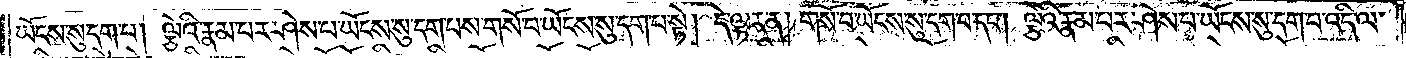ཡོངས་སུ་དག་པ། ལྕེའི་རྣམ་པར་ཤེས་པ་ཡོངས་སུ་དག་པས་གསོ་བ་ཡོངས་སུ་དག་པ་སྟེ། དེ་ལྟར་ན། གསོ་བ་ཡོངས་སུ་དག་པ་དང༌། ལྕེའི་རྣམ་པར་ཤེས་པ་ཡོངས་སུ་དག་པ་འདི་ལ་
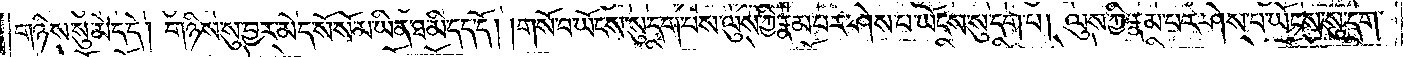གཉིས་སུ་མེད་དེ། གཉིས་སུ་བྱར་མེད་སོ་སོ་མ་ཡིན་ཐ་མི་དད་དོ། ། གསོ་བ་ཡོངས་སུ་དག་པས་ལུས་ཀྱི་རྣམ་པར་ཤེས་པ་ཡོངས་སུ་དག་པ། ལུས་ཀྱི་རྣམ་པར་ཤེས་པ་ཡོངས་སུ་དག་
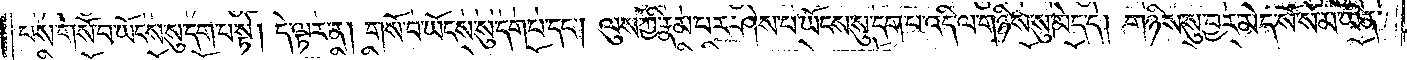པས་གསོ་བ་ཡོངས་སུ་དག་པ་སྟེ། དེ་ལྟར་ན། གསོ་བ་ཡོངས་སུ་དག་པ་དང༌། ལུས་ཀྱི་རྣམ་པར་ཤེས་པ་ཡོངས་སུ་དག་པ་འདི་ལ་གཉིས་སུ་མེད་དེ། གཉིས་སུ་བྱར་མེད་སོ་སོ་མ་ཡིན་
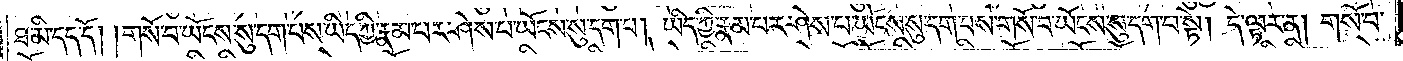ཐ་མི་དད་དོ། །གསོ་བ་ཡོངས་སུ་དག་པས་ཡིད་ཀྱི་རྣམ་པར་ཤེས་པ་ཡོངས་སུ་དག་པ། ཡིད་ཀྱི་རྣམ་པར་ཤེས་པ་ཡོངས་སུ་དག་པས་གསོ་བ་ཡོངས་སུ་དག་པ་སྟེ། དེ་ལྟར་ན། གསོ་བ་
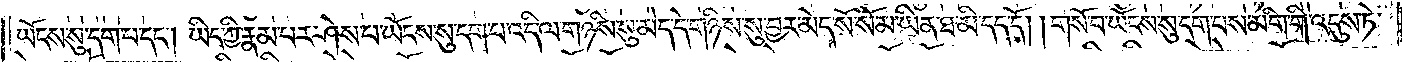ཡོངས་སུ་དག་པ་དང༌། ཡིད་ཀྱི་རྣམ་པར་ཤེས་པ་ཡོངས་སུ་དག་པ་འདི་ལ་གཉིས་སུ་མེད་དེ། གཉིས་སུ་བྱར་མེད་སོ་སོ་མ་ཡིན་ཐ་མི་དད་དོ། །གསོ་བ་ཡོངས་སུ་དག་པས་མིག་གི་འདུས་ཏེ་
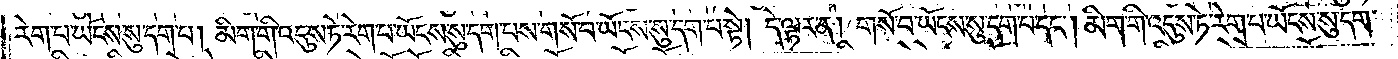རེག་པ་ཡོངས་སུ་དག་པ། མིག་གི་འདུས་ཏེ་རེག་པ་ཡོངས་སུ་དག་པས་གསོ་བ་ཡོངས་སུ་དག་པ་སྟེ། དེ་ལྟར་ན། གསོ་བ་ཡོངས་སུ་དག་པ་དང༌། མིག་གི་འདུས་ཏེ་རེག་པ་ཡོངས་སུ་དག་
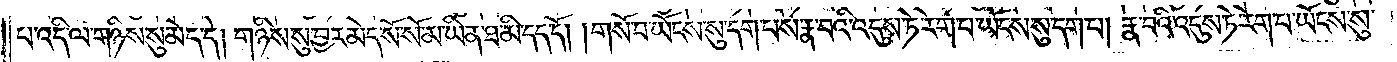པ་འདི་ལ་གཉིས་སུ་མེད་དེ། གཉིས་སུ་བྱར་མེད་སོ་སོ་མ་ཡིན་ཐ་མི་དད་དོ། །གསོ་བ་ཡོངས་སུ་དག་པས་རྣ་བའི་འདུས་ཏེ་རེག་པ་ཡོངས་སུ་དག་པ། རྣ་བའི་འདུས་ཏེ་རེག་པ་ཡོངས་སུ་
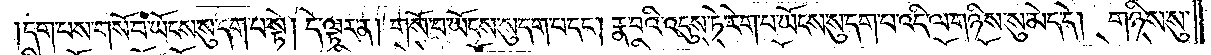དག་པས་གསོ་བ་ཡོངས་སུ་དག་པ་སྟེ། དེ་ལྟར་ན། གསོ་བ་ཡོངས་སུ་དག་པ་དང༌། རྣ་བའི་འདུས་ཏེ་རེག་པ་ཡོངས་སུ་དག་པ་འདི་ལ་གཉིས་སུ་མེད་དེ། གཉིས་སུ་
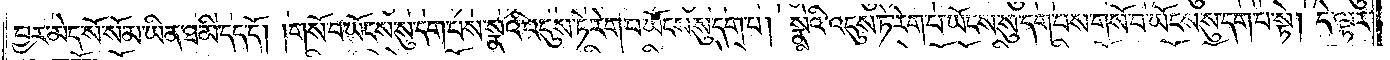བྱར་མེད་སོ་སོ་མ་ཡིན་ཐ་མི་དད་དོ། གསོ་བ་ཡོངས་སུ་དག་པས་སྣའི་འདུས་ཏེ་རེག་པ་ཡོངས་སུ་དག་པ། སྣའི་འདུས་ཏེ་རེག་པ་ཡོངས་སུ་དག་པས་གསོ་བ་ཡོངས་སུ་དག་པ་སྟེ། དེ་ལྟར་
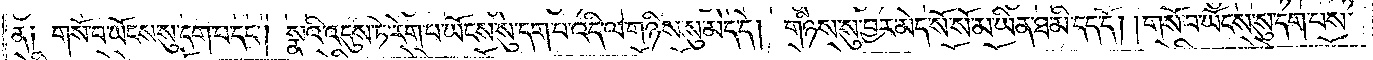ན༑ གསོ་བ་ཡོངས་སུ་དག་པ་དང༌། སྣའི་འདུས་ཏེ་རེག་པ་ཡོངས་སུ་དག་པ་འདི་ལ་གཉིས་སུ་མེད་དེ། གཉིས་སུ་བྱར་མེད་སོ་སོ་མ་ཡིན་ཐ་མི་དད་དོ། །གསོ་བ་ཡོངས་སུ་དག་པས་
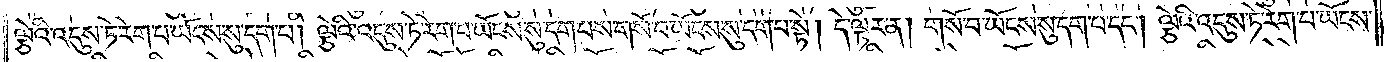ལྕེའི་འདུས་ཏེ་རེག་པ་ཡོངས་སུ་དག་པ། ལྕེའི་འདུས་ཏེ་རེག་པ་ཡོངས་སུ་དག་པས་གསོ་བ་ཡོངས་སུ་དག་པ་སྟེ། དེ་ལྟར་ན། གསོ་བ་ཡོངས་སུ་དག་པ་དང༌། ལྕེའི་འདུས་ཏེ་རེག་པ་ཡོངས་
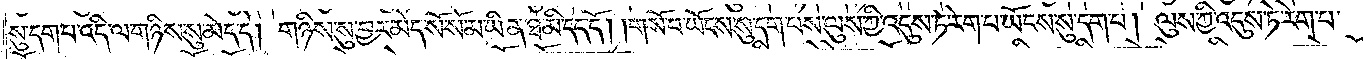སུ་དག་པ་འདི་ལ་གཉིས་སུ་མེད་དེ། གཉིས་སུ་བྱར་མེད་སོ་སོ་མ་ཡིན་ཐ་མི་དད་དོ། །གསོ་བ་ཡོངས་སུ་དག་པས་ལུས་ཀྱི་འདུས་ཏེ་རེག་པ་ཡོངས་སུ་དག་པ། ལུས་ཀྱི་འདུས་ཏེ་རེག་པ་
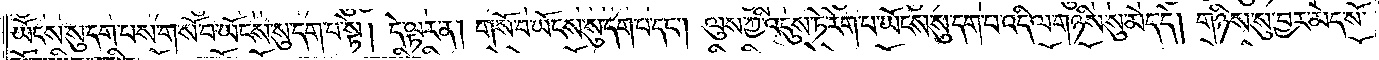ཡོངས་སུ་དག་པས་གསོ་བ་ཡོངས་སུ་དག་པ་སྟེ། དེ་ལྟར་ན། གསོ་བ་ཡོངས་སུ་དག་པ་དང༌། ལུས་ཀྱི་འདུས་ཏེ་རེག་པ་ཡོངས་སུ་དག་པ་འདི་ལ་གཉིས་སུ་མེད་དེ། གཉིས་སུ་བྱར་མེད་སོ་
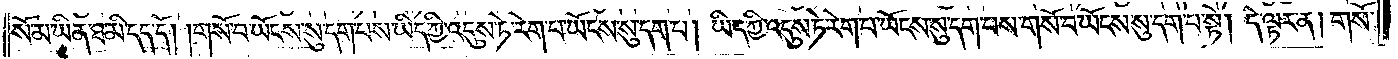སོ་མ་ཡིན་ཐ་མི་དད་དོ། །གསོ་བ་ཡོངས་སུ་དག་པས་ཡིད་ཀྱི་འདུས་ཏེ་རེག་པ་ཡོངས་སུ་དག་པ། ཡིད་ཀྱི་འདུས་ཏེ་རེག་པ་ཡོངས་སུ་དག་པས་གསོ་བ་ཡོངས་སུ་དག་པ་སྟེ། དེ་ལྟར་ན། གསོ་
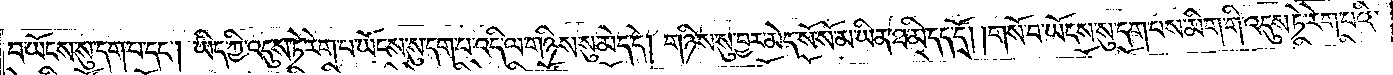བ་ཡོངས་སུ་དག་པ་དང༌། ཡིད་ཀྱི་འདུས་ཏེ་རེག་པ་ཡོངས་སུ་དག་པ་འདི་ལ་གཉིས་སུ་མེད་དེ། གཉིས་སུ་བྱར་མེད་སོ་སོ་མ་ཡིན་ཐ་མི་དད་དོ། །གསོ་བ་ཡོངས་སུ་དག་པས་མིག་གི་འདུས་ཏེ་རེག་པའི་
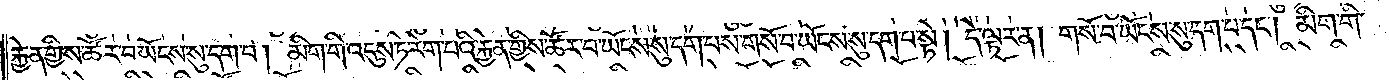རྐྱེན་གྱིས་ཚོར་བ་ཡོངས་སུ་དག་པ། མིག་གི་འདུས་ཏེ་རེག་པའི་རྐྱེན་གྱིས་ཚོར་བ་ཡོངས་སུ་དག་པས་གསོ་བ་ཡོངས་སུ་དག་པ་སྟེ། དེ་ལྟར་ན། གསོ་བ་ཡོངས་སུ་དག་པ་དང༌། མིག་གི་
